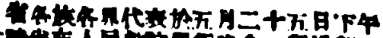省各族各界代表於五月二十五日下午
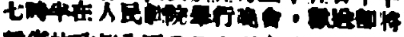七時半在人民劇院舉行晚會，歡送卽將
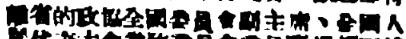離省的政協全國委員會副主席、全國人
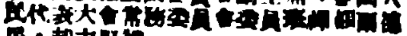民代表大會常務委員會委員班禪額爾德
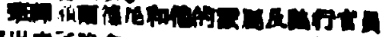班禪額爾德尼和他的家屬及隨行官員
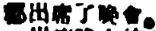都出席了晚會。
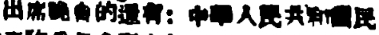出席晚會的還有：中華人民共和國民
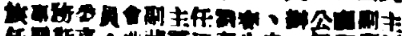族事務委員會副主任劉春、辦公廳副主
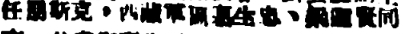任朋斯克，西藏軍區慕生忠、梁選賢同
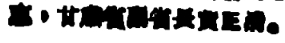志，甘肅省副省長黃正清。
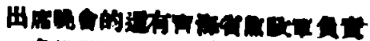出席晚會的還有靑海省黨政軍負責
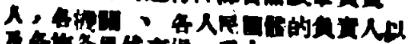人，各機關、各人民團體的負責人以
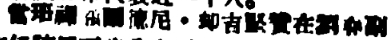當班禪額爾德尼・却吉堅贊在劉春副
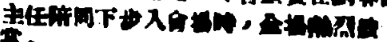主任陪同下步入會場時，全場熱烈鼓
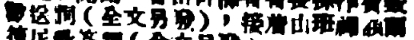歡送詞（全文另發），接着由班禪額爾
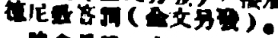德尼致答詞（全文另發）。
